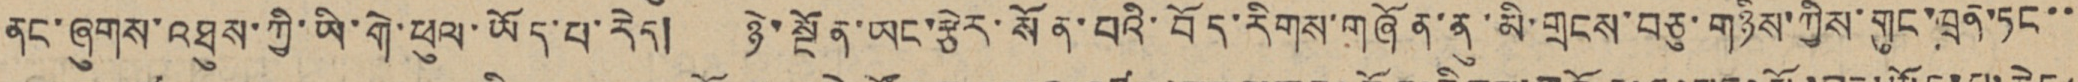ནང་ཞུགས་འཐུས་ཀྱི་ཡི་གེ་ཕུལ་ཡོད་པ་རེད། ཉེ་སྔོན་ཡང་རྩེར་སོན་པའི་བོད་རིགས་གཞོན་ནུ་མི་གྲངས་བཅུ་གཉིས་ཀྱིས་གུང་ཁྲན་ཏང་་
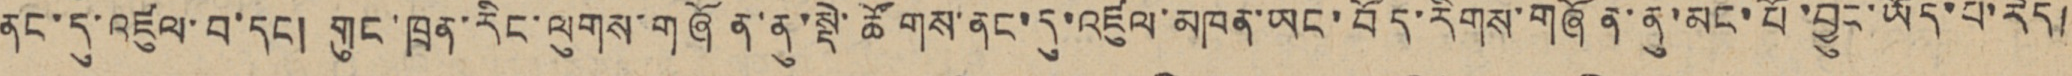ནང་དུ་འཛུལ་བ་དང། གུང་ཁྲན་རིང་ལུགས་གཞོན་ནུ་སྡེ་ཚོགས་ནང་དུ་འཛུལ་མཁན་ཡང་བོད་རིགས་གཞོན་ནུ་མང་པོ་བྱུང་ཡོད་པ་རེད།
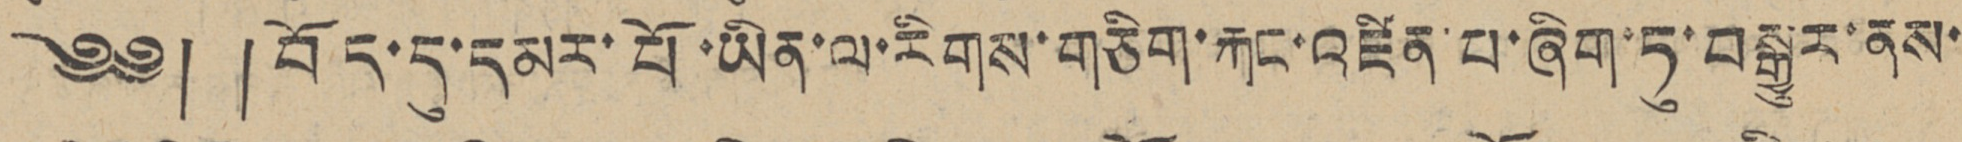༄༅། །བོད་དུ་དམར་པོ་ཡིན་ལ་རིགས་གཅིག་རྐང་འཛིན་པ་ཞིག་ཏུ་བསྒྱུར་ནས་
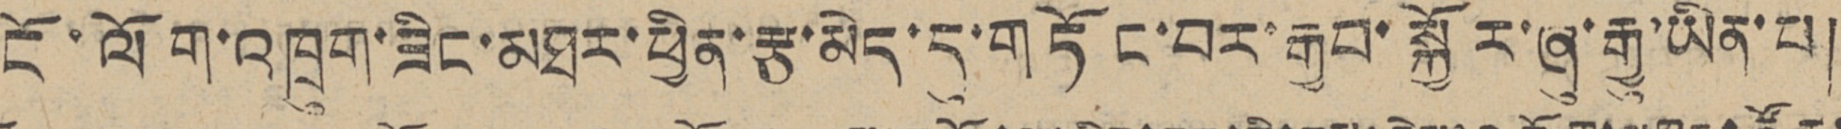ངོ་ལོག་འཁྲུག་ཟིང་མཐར་ཕྱིན་རྩ་མེད་དུ་གཏོང་བར་རྒྱབ་སྐྱོར་ཞུ་རྒྱུ་ཡིན་པ།
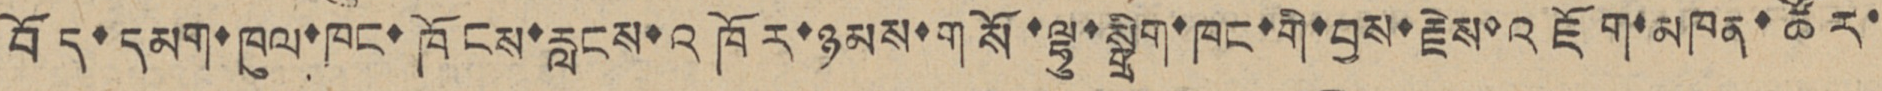བོད་དམག་ཁུལ་ཁང་ཁོངས་རླངས་འཁོར་ཉམས་གསོ་ལྷུ་སྒྲིག་ཁང་གི་བྱས་རྗེས་འཇོག་མཁན་ཚོར་
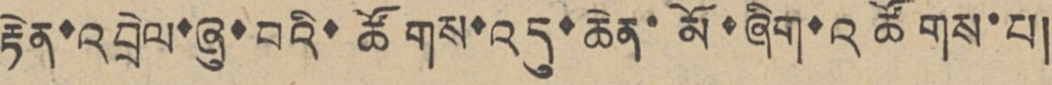རྟེན་འབྲེལ་ཞུ་བའི་ཚོགས་འདུ་ཆེན་མོ་ཞིག་འཚོགས་པ།
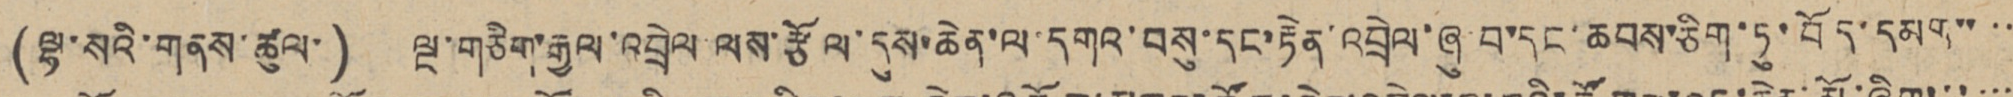(ལྷ་སའི་གནས་ཚུལ་) ལྔ་གཅིག་རྒྱལ་འབྲེལ ལས་རྩོལ་དུས་ཆེན་ལ་དགའ་བསུ་དང་རྟེན་འབྲེལ་ཞུ བ་དང་ཆབས་ཅིག་ཏུ་བོད་དམག་་་་
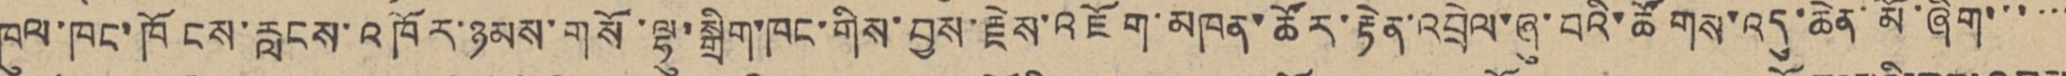ཁུལ་ཁང་ཁོངས་རླངས་འཁོར་ཉམས་གསོ་ལྷུ་སྒྲིག་ཁང་གིས་བྱས་རྗེས་འཇོག་མཁན་ཚོར་རྟེན་འབྲེལ་ཞུ་བའི་ཚོགས་འདུ་ཆེན་མོ་ཞིག་་་་་་
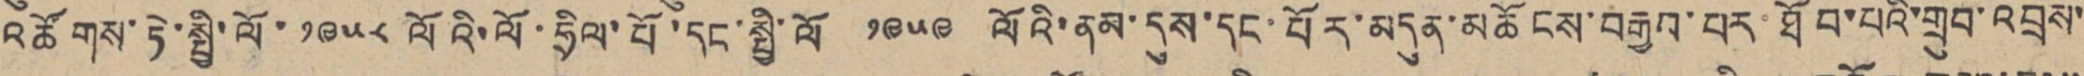འཚོགས་ཏེ་སྤྱི་ལོ་ ༡༩༥༨ ལོའི་ལོ་ཧྲིལ་པོ་དང་སྤྱི་ལོ་ ༡༩༥༩ ལོའི་ནམ་དུས་དང་པོར་མདུན་མཆོངས་བརྒྱབ་པར་ཐོབ་པའི་གྲུབ་འབྲས་
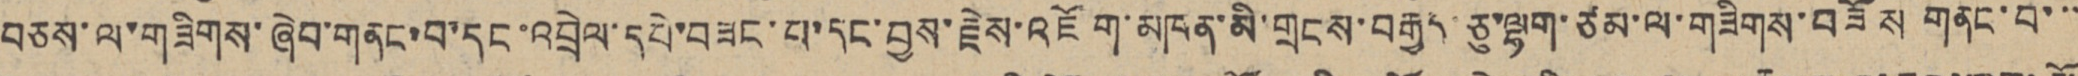བཅས་ལ་གཟིགས་ཞེབ་གནང་བ་དང་འབྲེལ་དཔེ་བཟང་པ་དང་བྱས་རྗེས་འཇོག་མཁན་མི་གྲངས་བརྒྱད་ཅུ་ལྷག་ཙམ་ལ་གཟིགས་བཟོས གནང་བ་་་
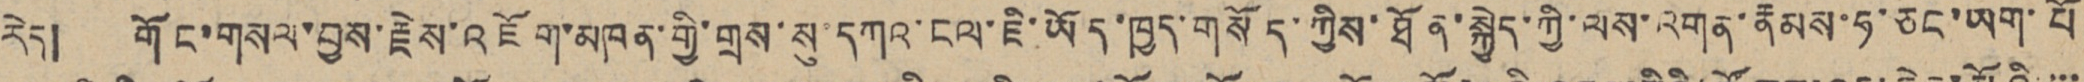རེད། གོང་གསལ་བྱས་རྗེས་འཇོག་མཁན་གྱི་གྲས་སུ་དཀའ་ངལ་ཇི་ཡོད་ཁྱད་གསོད་ཀྱིས་ཐོན་སྐྱེད་ཀྱི་ལས་འགན་རྣམས་ཧ་ཅང་ཡག་པོ
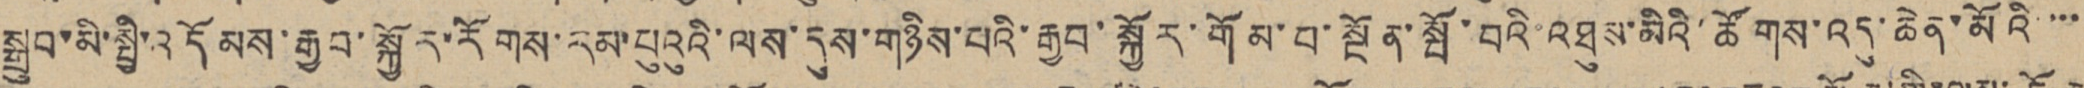སྒྲུབ་མི་སྤྱི་འདོམས་རྒྱབ་སྐྱོར་རོགས་རམ་པུའུའི་ལས་དུས་གཉིས་པའི་རྒྱབ་སྐྱོར་གོམ་པ་སྔོན་སྤོ་བའི་འཐུས་མིའི་ཚོགས་འདུ་ཆེན་མོའི་་་་
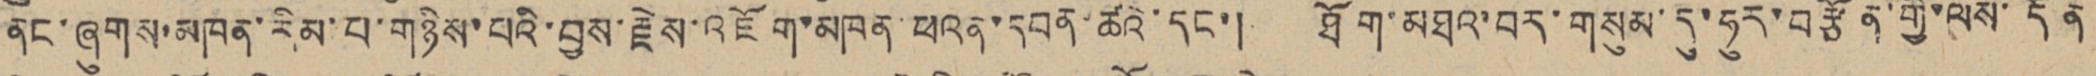ནང་ཞུགས་མཁན་རིམ་པ་གཉིས་པའི་བྱས་རྗེས་འཇོག་མཁན་ཕའན་དབན་ཚའི་དང་། ཐོག་མཐའ་བར་གསུམ་དུ་ཧུར་བརྩོན་གྱི་ལས་དོན
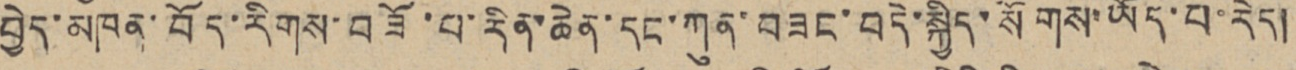བྱེད་མཁན་བོད་རིགས་བཟོ་པ་རིན་ཆེན་དང་ཀུན་བཟང་བདེ་སྐྱིད་སོགས་ཡོད་པ་རེད།
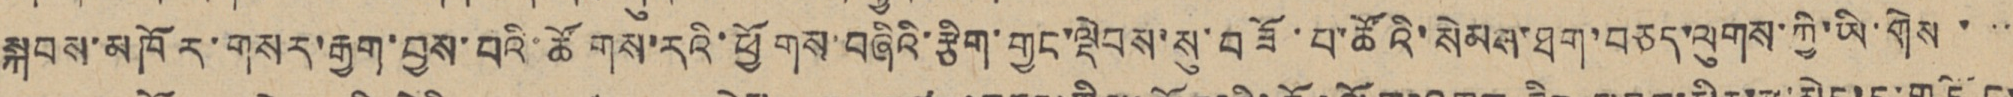སྐབས་མཁོར་གསར་རྒྱག་བྱས་པའི་ཚོགས་རའི་ཕྱོགས་བཞིའི་རྩིག་གྱང་ལྡེབས་སུ་བཟོ་པ་ཚོའི་སེམས་ཐག་བཅད་ལུགས་ཀྱི་ཡི་གེས་་་
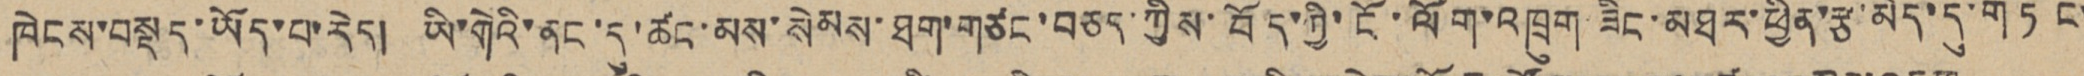ཁེངས་བསྡད་ཡོད་པ་རེད། ཡི་གེའི་ནང་དུ་ཚང་མས་སེམས་ཐག་གཙང་བཅད་ཀྱིས་བོད་ཀྱི་ངོ་ལོག་འཁྲུག ཟིང་མཐར་ཕྱིན་རྩ་མེད་དུ་གཏོང་
